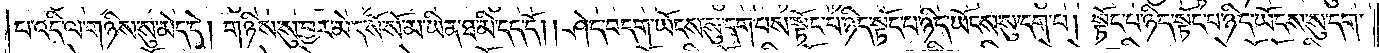པ་འདི་ལ་གཉིས་སུ་མེད་དེ། གཉིས་སུ་བྱར་མེད་སོ་སོ་མ་ཡིན་ཐ་མི་དད་དོ། །ཤེད་བདག་ཡོངས་སུ་དག་པས་སྟོང་པ་ཉིད་སྟོང་པ་ཉིད་ཡོངས་སུ་དག་པ། སྟོང་པ་ཉིད་སྟོང་པ་ཉིད་ཡོངས་སུ་དག་
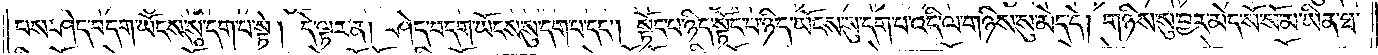པས་ཤེད་བདག་ཡོངས་སུ་དག་པ་སྟེ། དེ་ལྟར་ན། ཤེད་བདག་ཡོངས་སུ་དག་པ་དང༌། སྟོང་པ་ཉིད་སྟོང་པ་ཉིད་ཡོངས་སུ་དག་པ་འདི་ལ་གཉིས་སུ་མེད་དེ། གཉིས་སུ་བྱར་མེད་སོ་སོ་མ་ཡིན་ཐ་
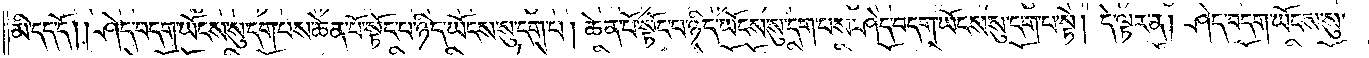མི་དད་དོ། །ཤེད་བདག་ཡོངས་སུ་དག་པས་ཆེན་པོ་སྟོང་པ་ཉིད་ཡོངས་སུ་དག་པ། ཆེན་པོ་སྟོང་པ་ཉིད་ཡོངས་སུ་དག་པས་ཤེད་བདག་ཡོངས་སུ་དག་པ་སྟེ། དེ་ལྟར་ན། ཤེད་བདག་ཡོངས་སུ་
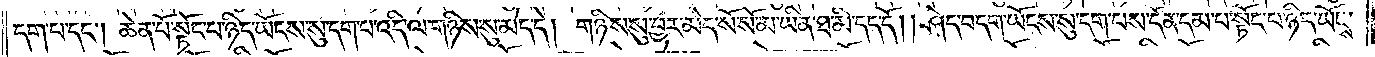དག་པ་དང༌། ཆེན་པོ་སྟོང་པ་ཉིད་ཡོངས་སུ་དག་པ་འདི་ལ་གཉིས་སུ་མེད་དེ། གཉིས་སུ་བྱར་མེད་སོ་སོ་མ་ཡིན་ཐ་མི་དད་དོ། །ཤེད་བདག་ཡོངས་སུ་དག་པས་དོན་དམ་པ་སྟོང་པ་ཉིད་ཡོངས་
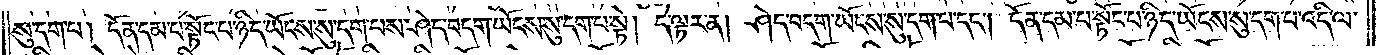སུ་དག་པ། དོན་དམ་པ་སྟོང་པ་ཉིད་ཡོངས་སུ་དག་པས་ཤེད་བདག་ཡོངས་སུ་དག་པ་སྟེ། དེ་ལྟར་ན། ཤེད་བདག་ཡོངས་སུ་དག་པ་དང༌། དོན་དམ་པ་སྟོང་པ་ཉིད་ཡོངས་སུ་དག་པ་འདི་ལ་
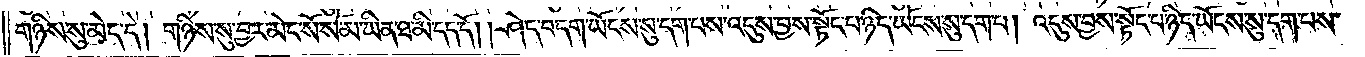གཉིས་སུ་མེད་དེ། གཉིས་སུ་བྱར་མེད་སོ་སོ་མ་ཡིན་ཐ་མི་དད་དོ། །ཤེད་བདག་ཡོངས་སུ་དག་པས་འདུས་བྱས་སྟོང་པ་ཉིད་ཡོངས་སུ་དག་པ། འདུས་བྱས་སྟོང་པ་ཉིད་ཡོངས་སུ་དག་པས་
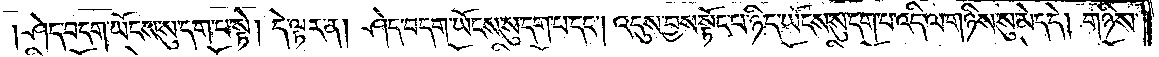ཤེད་བདག་ཡོངས་སུ་དག་པ་སྟེ། དེ་ལྟར་ན། ཤེད་བདག་ཡོངས་སུ་དག་པ་དང༌། འདུས་བྱས་སྟོང་པ་ཉིད་ཡོངས་སུ་དག་པ་འདི་ལ་གཉིས་སུ་མེད་དེ། གཉིས་
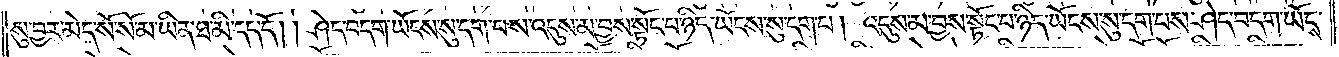སུ་བྱར་མེད་སོ་སོ་མ་ཡིན་ཐ་མི་དད་དོ། །ཤེད་བདག་ཡོངས་སུ་དག་པས་འདུས་མ་བྱས་སྟོང་པ་ཉིད་ཡོངས་སུ་དག་པ། འདུས་མ་བྱས་སྟོང་པ་ཉིད་ཡོངས་སུ་དག་པས་ཤེད་བདག་ཡོངས་
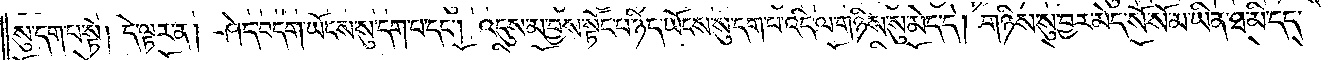སུ་དག་པ་སྟེ། དེ་ལྟར་ན། ཤེད་བདག་ཡོངས་སུ་དག་པ་དང༌། འདུས་མ་བྱས་སྟོང་པ་ཉིད་ཡོངས་སུ་དག་པ་འདི་ལ་གཉིས་སུ་མེད་དེ། གཉིས་སུ་བྱར་མེད་སོ་སོ་མ་ཡིན་ཐ་མི་དད་
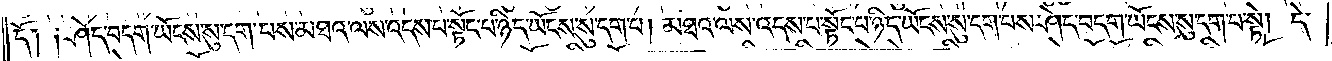དོ༑ ༑ཤེད་བདག་ཡོངས་སུ་དག་པས་མཐའ་ལས་འདས་པ་སྟོང་པ་ཉིད་ཡོངས་སུ་དག་པ། མཐའ་ལས་འདས་པ་སྟོང་པ་ཉིད་ཡོངས་སུ་དག་པས་ཤེད་བདག་ཡོངས་སུ་དག་པ་སྟེ། དེ་
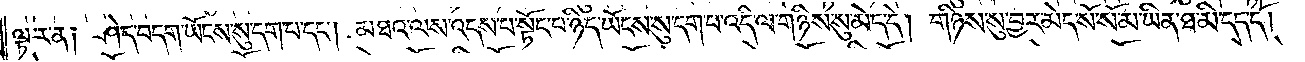ལྟར་ན༑ ཤེད་བདག་ཡོངས་སུ་དག་པ་དང༌། མཐའ་ལས་འདས་པ་སྟོང་པ་ཉིད་ཡོངས་སུ་དག་པ་འདི་ལ་གཉིས་སུ་མེད་དེ། གཉིས་སུ་བྱར་མེད་སོ་སོ་མ་ཡིན་ཐ་མི་དད་དོ། །
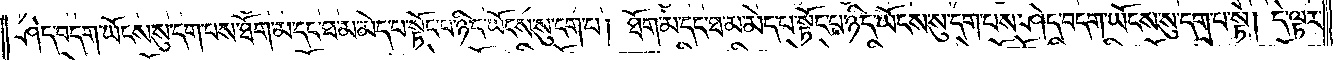ཤེད་བདག་ཡོངས་སུ་དག་པས་ཐོག་མ་དང་ཐ་མ་མེད་པ་སྟོང་པ་ཉིད་ཡོངས་སུ་དག་པ། ཐོག་མ་དང་ཐ་མ་མེད་པ་སྟོང་པ་ཉིད་ཡོངས་སུ་དག་པས་ཤེད་བདག་ཡོངས་སུ་དག་པ་སྟེ། དེ་ལྟར་
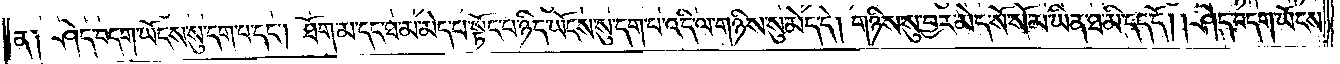ན། ཤེད་བདག་ཡོངས་སུ་དག་པ་དང༌། ཐོག་མ་དང་ཐ་མ་མེད་པ་སྟོང་པ་ཉིད་ཡོངས་སུ་དག་པ་འདི་ལ་གཉིས་སུ་མེད་དེ། གཉིས་སུ་བྱར་མེད་སོ་སོ་མ་ཡིན་ཐ་མི་དད་དོ། །ཤེད་བདག་ཡོངས་
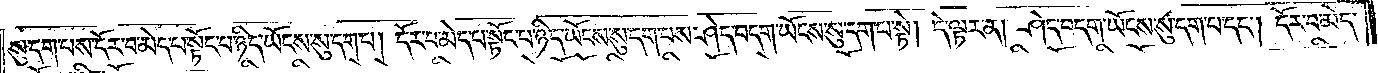སུ་དག་པས་དོར་བ་མེད་པ་སྟོང་པ་ཉིད་ཡོངས་སུ་དག་པ། དོར་བ་མེད་པ་སྟོང་པ་ཉིད་ཡོངས་སུ་དག་པས་ཤེད་བདག་ཡོངས་སུ་དག་པ་སྟེ། དེ་ལྟར་ན། ཤེད་བདག་ཡོངས་སུ་དག་པ་དང༌། དོར་བ་མེད་
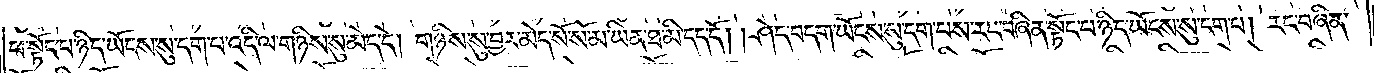པ་སྟོང་པ་ཉིད་ཡོངས་སུ་དག་པ་འདི་ལ་གཉིས་སུ་མེད་དེ། གཉིས་སུ་བྱར་མེད་སོ་སོ་མ་ཡིན་ཐ་མི་དད་དོ། །ཤེད་བདག་ཡོངས་སུ་དག་པས་རང་བཞིན་སྟོང་པ་ཉིད་ཡོངས་སུ་དག་པ། རང་བཞིན་
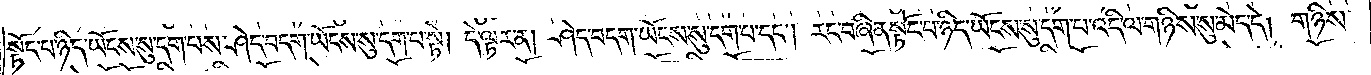སྟོང་པ་ཉིད་ཡོངས་སུ་དག་པས་ཤེད་བདག་ཡོངས་སུ་དག་པ་སྟེ། དེ་ལྟར་ན། ཤེད་བདག་ཡོངས་སུ་དག་པ་དང༌། རང་བཞིན་སྟོང་པ་ཉིད་ཡོངས་སུ་དག་པ་འདི་ལ་གཉིས་སུ་མེད་དེ། གཉིས་
